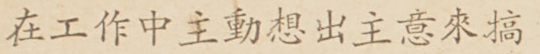在工作中主動想出主意來搞
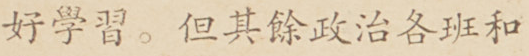好學習。但其餘政治各班和
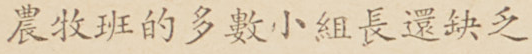農牧班的多數小組長還缺乏
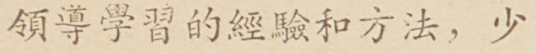領導學習的經驗和方法，少
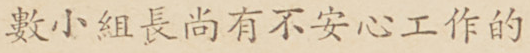數小組長尚有不安心工作的
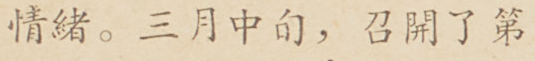情緒。三月中旬，召開了第
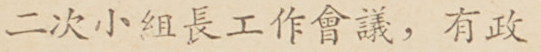二次小組長工作會議，有政
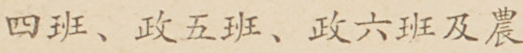四班、政五班、政六班及農
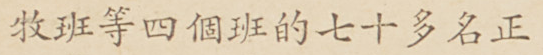牧班等四個班的七十多名正
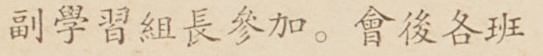副學習組長參加。會後各班
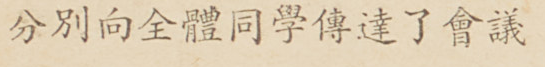分別向全體同學傳達了會議
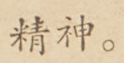精神。
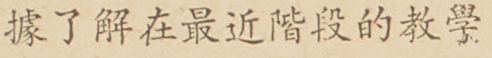據了解在最近階段的教學
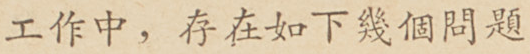工作中，存在如下幾個問題
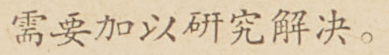需要加以研究解決。
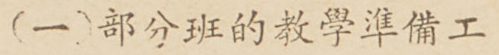（一）部分班的教學準備工作
